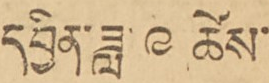དབྱིན་ཟླ་ ༩ ཚེས་
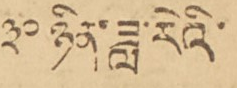༣༠ ཉིན་ཟླ་རེའི་
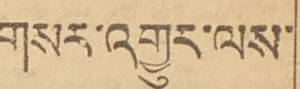གསར་འགྱུར་ལས་
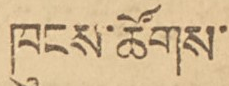ཁུངས་ཚོགས་
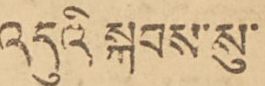འདུའི སྐབས་སུ་
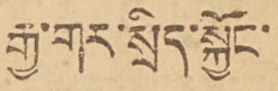རྒྱ་གར་སྲིད་སྐྱོང་
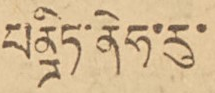པནྜིཏ་ནེཧ་རུ་
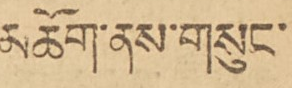མཆོག་ནས་གསུང་
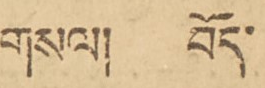གསལ། བོད་
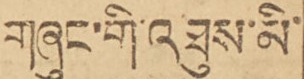གཞུང་གི་འཐུས་མི་
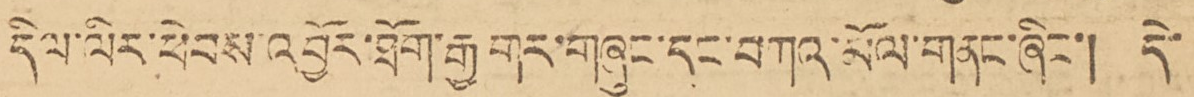དིལ་ལིར་ཕེབས་འབྱོར་ཐོག་རྒྱ་གར་གཞུང་དང་བཀའ་མོལ་གནང་ཞིང་། དེ་
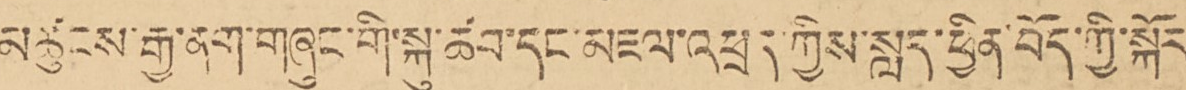མཚུངས་རྒྱ་ནང་གཞུང་གི་སྐུ་ཚབ་དང་མཇལ་འཕྲད་ཀྱིས་སླད་ཕྱིན་བོད་ཀྱི་སྐོར་
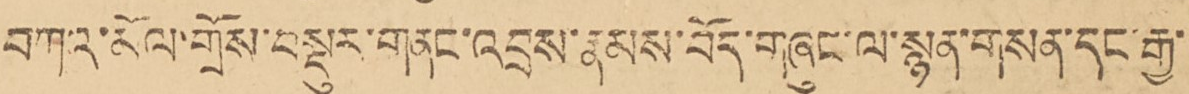བཀའ་མོལ་གྲོས་བསྡུར་གནང་འབྲས་རྣམས་བོད་གཞུང་ལ་སྙན་གསན་དང་རྒྱ་
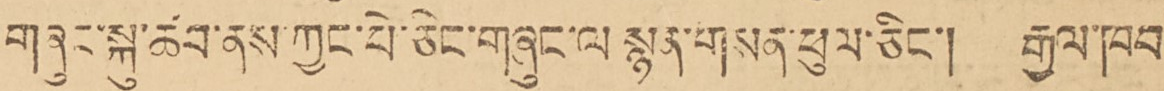གཞུང་སྐུ་ཚབ་ནས་ཀྱང་པེ་ཅིང་གཞུང་ལ་སྙན་གསར་ཕུལ་ཅིང་། རྒྱལ་ཁབ་
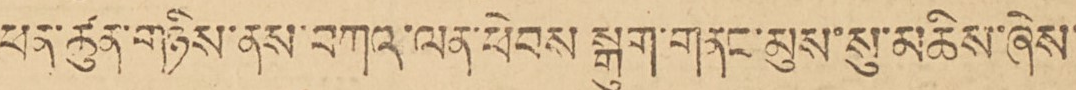ཕན་ཚུལ་གཉིས་ནས་བཀའ་ལན་ཕེབས སྒུག་གནང་མུས་སུ་མཆིས་ཞེས་
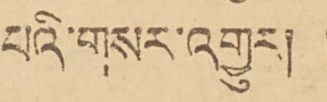པའི་གསར་འགྱུར། །
